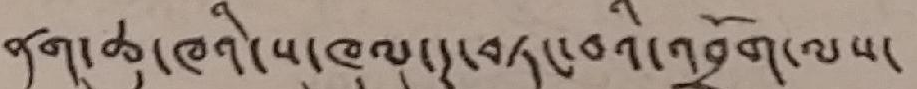ནག་ཆུ་ཁའི་ས་ཁུལ་དུ་བཏང་བའི་འབྲོག་ལས་
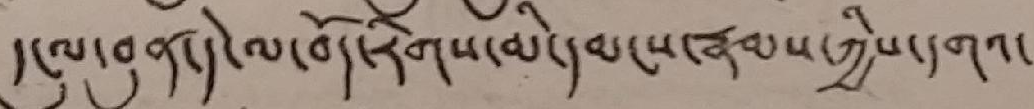དངུལ་བུན་དེ་ལ་བོད་རིགས་མི་དམངས་རྣམས་ཀྱིས་དགའ་
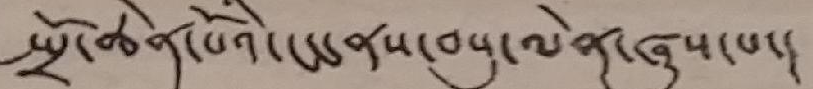སྤྲོ་ཆེན་པོའི་ངང་ནས་བསུ་ལེན་ཞུས་པ་།
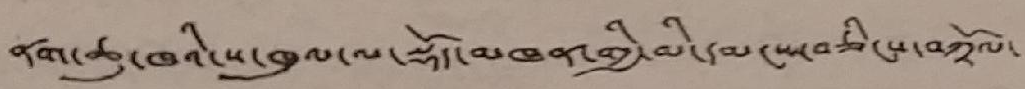ནག་ཆུ་ཁའི་ས་ཁུལ་ལ་སྡོད་མཁན་གྱི་མི་དམངས་བཅིངས་བཀྲོལ་
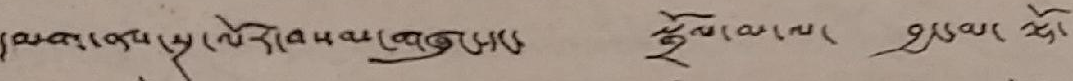དམག་ནས་སྔ་ལོར་བསམ་གཞུང་དང་ སྒྲོལ་མ་ལ་ བྱང་མ་ ལྷོ་
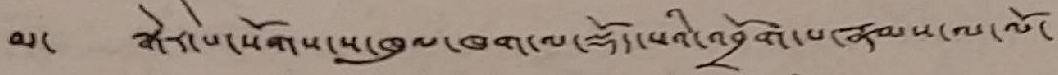མ་ སྒེར་པ་སོགས་ས་ཁུལ་ཁག་ལ་སྡོད་སའི་འབྲོག་པ་རྣམས་ལ་ལོ་
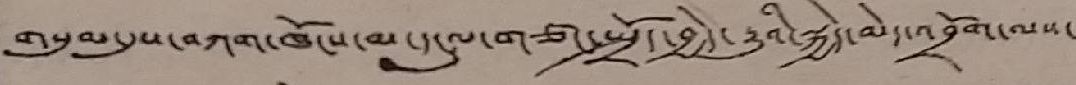གསུམ་དུས་བཀག་ཁོངས་མ་དངུལ་གཙང་སྤྲོད་བྱེད་རྒྱུའི་སྐྱེད་མེད་འབྲོག་ལས་
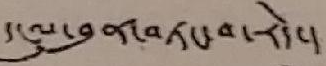དངུལ་བུན་བཏང་བ་རེད་།
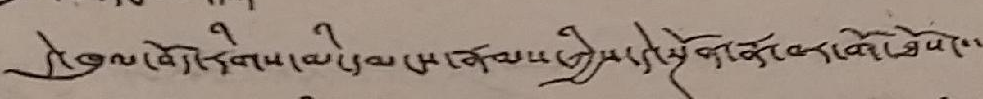དེ་ཁུལ་བོད་རིགས་མི་དམངས་རྣམས་ཀྱིས་དེ་སྔོན་རྣ་བར་གོ་ཐོས་་་
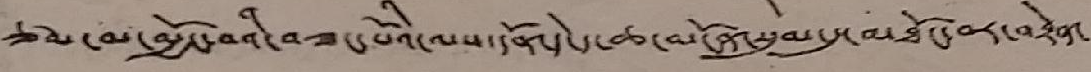ཙམ་མ་མྱོང་བའི་བཟང་པོའི་ལས་དོན་དེ་ད་ཆ་མངོན་སུམ་དུ་མཐོང་བར་བརྟེན་
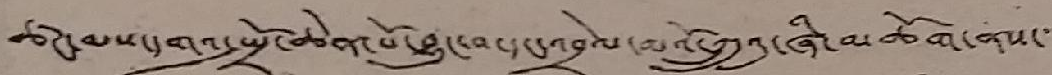ཚང་མས་དགའ་སྤྲོ་ཆེནཔོ་བྱུང་བ་དང་འབྲེལ་མའོ་ཀྲུའུ་ཞི་མཆོག་ནས་་་
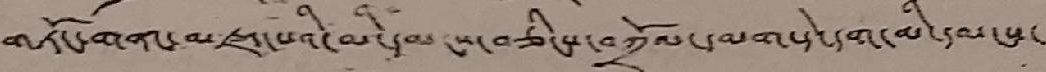གཏོང་གནང་མཛད་པའི་མི་དམངས་བཅིངས་བཀྲོལ་དམག་དེ་དག་མི་དམངས་
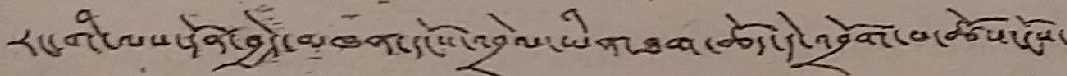རང་གི་ལས་དོན་བྱེད་མཁན་དངོས་འབྲེལ་ཡིན་ཐག་ཆོད་དེ་འབྲོག་པ་ཚོས་ངོས་
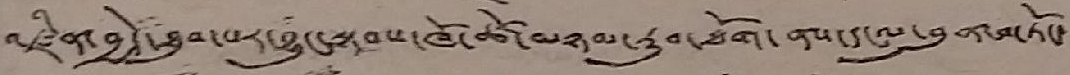འཛིན་བྱེད་ཐུབ་པར་བྱུང་སྟབས་ཁོ་ཚོ་མཉམ་རུབ་ཐོག་ནས་དངུལ་བུན་གཏོང་
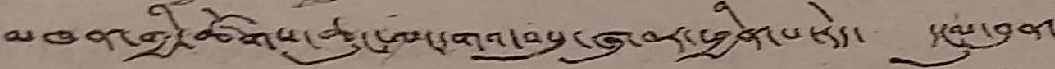མཁན་གྱི་ཚོགས་ཆུང་ལ་དགའ་བསུ་ཞུ་བར་ཕྱིན་པ་རེད་ དངུལ་བུན་
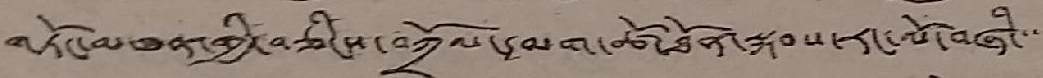གཏོང་མཁན་གྱི་བཅིངས་བཀྲོལ་དམག་ཚོ་ཐོན་སྐབས་རང་ལོ་བཞི་་་་
